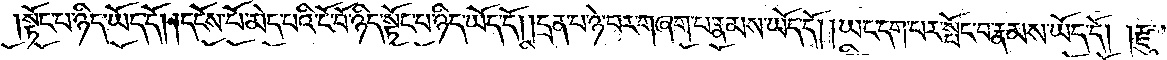སྟོང་པ་ཉིད་ཡོད་དོ། །དངོས་པོ་མེད་པའི་ངོ་བོ་ཉིད་སྟོང་པ་ཉིད་ཡོད་དོ། །དྲན་པ་ཉེ་བར་གཞག་པ་རྣམས་ཡོད་དོ། །ཡང་དག་པར་སྤོང་བ་རྣམས་ཡོད་དོ། །རྫུ་
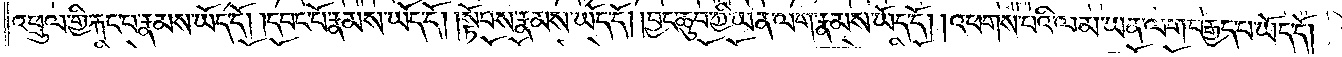འཕྲུལ་གྱི་རྐང་པ་རྣམས་ཡོད་དོ། །དབང་པོ་རྣམས་ཡོད་དོ། །སྟོབས་རྣམས་ཡོད་དོ། །བྱང་ཆུབ་ཀྱི་ཡན་ལག་རྣམས་ཡོད་དོ། །འཕགས་པའི་ལམ་ཡན་ལག་བརྒྱད་པ་ཡོད་དོ། །
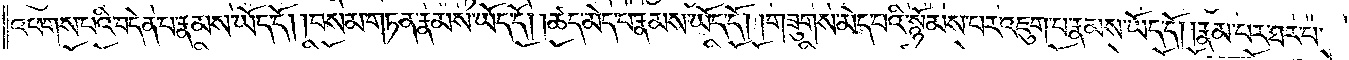འཕགས་པའི་བདེན་པ་རྣམས་ཡོད་དོ། །བསམ་གཏན་རྣམས་ཡོད་དོ། །ཚད་མེད་པ་རྣམས་ཡོད་དོ། །གཟུགས་མེད་པའི་སྙོམས་པར་འཇུག་པ་རྣམས་ཡོད་དོ། །རྣམ་པར་ཐར་པ་
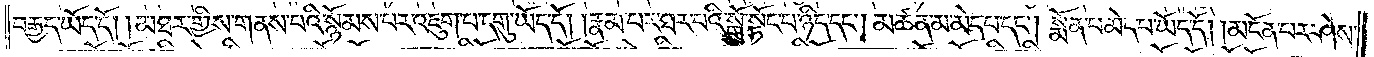བརྒྱད་ཡོད་དོ། །མཐར་གྱིས་གནས་པའི་སྙོམས་པར་འཇུག་པ་དགུ་ཡོད་དོ། །རྣམ་པར་ཐར་པའི་སྒོ་སྟོང་པ་ཉིད་དང༌། མཚན་མ་མེད་པ་དང༌། སྨོན་པ་མེད་པ་ཡོད་དོ། །མངོན་པར་ཤེས་
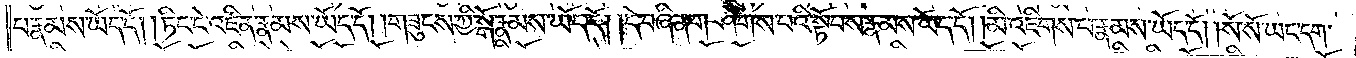པ་རྣམས་ཡོད་དོ། །ཏིང་ངེ་འཛིན་རྣམས་ཡོད་དོ། །གཟུངས་ཀྱི་སྒོ་རྣམས་ཡོད་དོ། །དེ་བཞིན་གཤེགས་པའི་སྟོབས་རྣམས་ཡོད་དོ། །མི་འཇིགས་པ་རྣམས་ཡོད་དོ། །སོ་སོ་ཡང་དག་
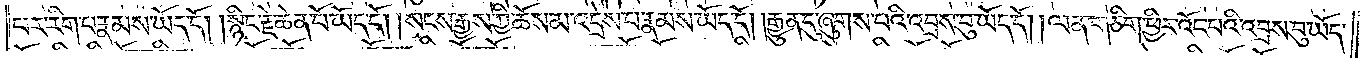པར་རིག་པ་རྣམས་ཡོད་དོ། །སྙིང་རྗེ་ཆེན་པོ་ཡོད་དོ། །སངས་རྒྱས་ཀྱི་ཆོས་མ་འདྲེས་པ་རྣམས་ཡོད་དོ། །རྒྱུན་དུ་ཞུགས་པའི་འབྲས་བུ་ཡོད་དོ། །ལན་གཅིག་ཕྱིར་འོད་པའི་འབྲས་བུ་ཡོད་
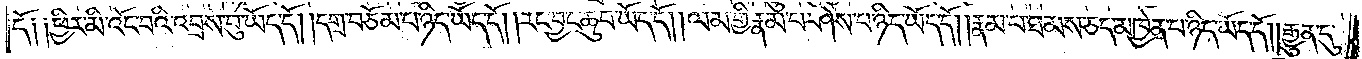དོ༑ ༑ཕྱིར་མི་འོང་བའི་འབྲས་བུ་ཡོད་དོ། །དགྲ་བཅོམ་པ་ཉིད་ཡོད་དོ། །རང་བྱང་ཆུབ་ཡོད་དོ། །ལམ་གྱི་རྣམ་པ་ཤེས་པ་ཉིད་ཡོད་དོ། །རྣམ་པ་ཐམས་ཅད་མཁྱེན་པ་ཉིད་ཡོད་དོ། །རྒྱུན་དུ་
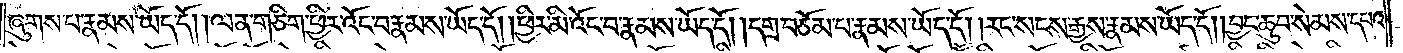ཞུགས་པ་རྣམས་ཡོད་དོ། །ལན་གཅིག་ཕྱིར་འོང་བ་རྣམས་ཡོད་དོ། །ཕྱིར་མི་འོང་བ་རྣམས་ཡོད་དོ། །དགྲ་བཅོམ་པ་རྣམས་ཡོད་དོ། །རང་སངས་རྒྱས་རྣམས་ཡོད་དོ། །བྱང་ཆུབ་སེམས་དཔའ་
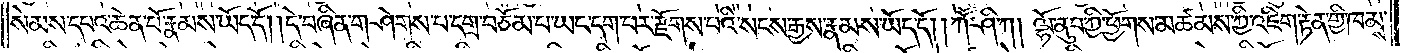སེམས་དཔའ་ཆེན་པོ་རྣམས་ཡོད་དོ། །དེ་བཞིན་གཤེགས་པ་དགྲ་བཅོམ་པ་ཡང་དག་པར་རྫོགས་པའི་སངས་རྒྱས་རྣམས་ཡོད་དོ། །ཀཽ་ཤི་ཀ། ལྷོ་ནུབ་ཀྱི་ཕྱོགས་མཚམས་ཀྱི་འཇིག་རྟེན་གྱི་ཁམས་
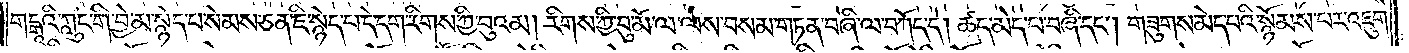གངྒཱའི་ཀླུང་གི་བྱེ་མ་སྙེད་ཀྱི་སེམས་ཅན་ཇི་སྙེད་པ་དེ་དག་རིགས་ཀྱི་བུའམ། རིགས་ཀྱི་བུ་མོ་ལ་ལས་བསམ་གཏན་བཞི་ལ་བཀོད་དེ། ཚད་མེད་པ་བཞི་དང༌། གཟུགས་མེད་པའི་སྙོམས་པར་འཇུག་
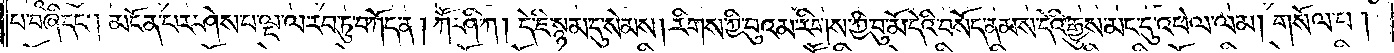པ་བཞི་དང༌། མངོན་པར་ཤེས་པ་ལྔ་ལ་རབ་ཏུ་བཀོད་ན། ཀཽ་ཤི་ཀ། དེ་ཇི་སྙམ་དུ་སེམས། རིགས་ཀྱི་བུའམ་རིགས་ཀྱི་བུ་མོ་དེའི་བསོད་ནམས་དེའི་རྒྱུས་མང་དུ་འཕེལ་ལམ། གསོལ་པ།
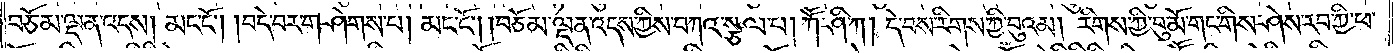བཅོམ་ལྡན་འདས། མང་ངོ༌། །བདེ་བར་གཤེགས་པ། མང་ངོ༌། །བཅོམ་ལྡན་འདས་ཀྱིས་བཀའ་སྩལ་པ། ཀཽ་ཤི་ཀ། དེ་བས་རིགས་ཀྱི་བུའམ། རིགས་ཀྱི་བུ་མོ་གང་གིས་ཤེས་རབ་ཀྱི་ཕ་
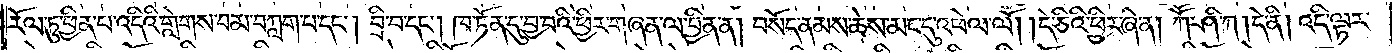རོལ་ཏུ་ཕྱིན་པ་འདིའི་གླེགས་བམ་བཀླག་པ་དང༌། བྲི་བ་དང༌། ཁ་ཏོན་དུ་བྱ་བའི་ཕྱིར་གཞན་ལ་བྱིན་ན། བསོད་ནམས་ཆེས་མང་དུ་འཕེལ་ལོ། །དེ་ཅིའི་ཕྱིར་ཞེ་ན། ཀཽ་ཤི་ཀ། དེ་ནི། འདི་ལྟར་
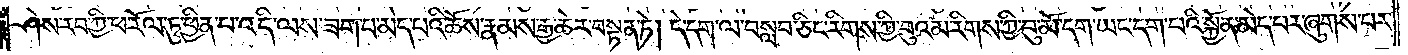ཤེས་རབ་ཀྱི་ཕ་རོལ་ཏུ་ཕྱིན་པ་འདི་ལས་ཟག་པ་མེད་པའི་ཆོས་རྣམས་རྒྱ་ཆེར་བསྟན་ཏེ། དེ་དག་ལ་བསླབ་ཅིང་རིགས་བུའམ་རིགས་ཀྱི་བུ་མོ་དག་ཡང་དག་པའི་སྐྱོན་མེད་པར་ཞུགས་པར་
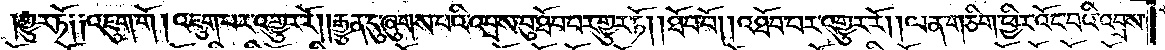གྱུར་ཏོ༑ ༑འཇུག་གོ །འཇུག་པར་འགྱུར་རོ། །རྒྱུན་དུ་ཞུགས་པའི་འབྲས་བུ་ཐོབ་པར་གྱུར་ཏོ། །ཐོབ་བོ། །འཐོབ་པར་འགྱུར་རོ། །ལན་གཅིག་ཕྱིར་འོང་བའི་འབྲས་
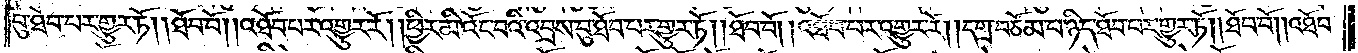བུ་ཐོབ་པར་གྱུར་ཏོ། །ཐོབ་བོ། །འཐོབ་པར་འགྱུར་རོ། །ཕྱིར་མི་འོང་བའི་འབྲས་བུ་ཐོབ་པར་གྱུར་ཏོ། །ཐོབ་བོ། །འཐོབ་པར་འགྱུར་རོ། །དགྲ་བཅོམ་པ་ཉིད་ཐོབ་པར་གྱུར་ཏོ། །ཐོབ་བོ། །འཐོབ་
